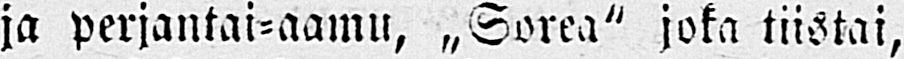ja perjantai-aamu, „Sorea" joka tiistai,
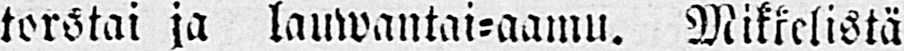torstai ja lauwantai-aamu. Mikkelistä
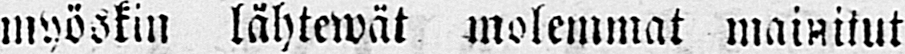myöskin lähtewät molemmat mainitut
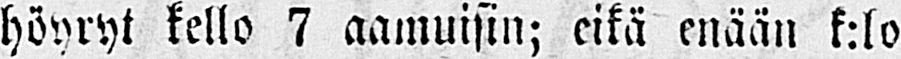höyryt kello 7 aamuisin; eikä enään k:lo
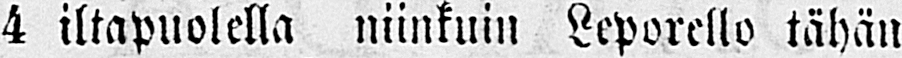4 ikäpuolella niinkuin Leporello tähän
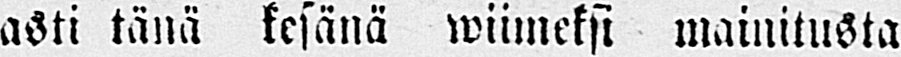asti tänä kesänä wiimeksi mainitusta
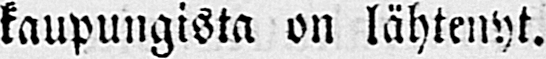kaupungista on lähtenyt.
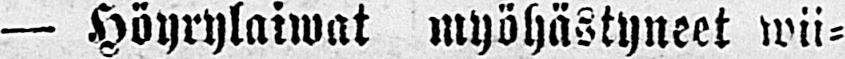— Höyrylaiwat myöhästyneet wii-
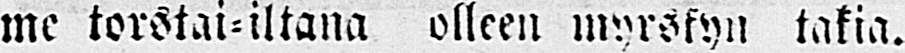me torstai-iltana olleen myrskyn takia.
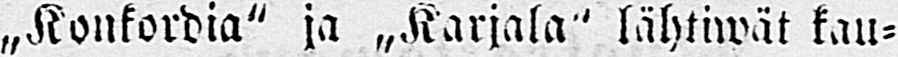„Konkordia" ja „Karjala" lähtiwät kau-
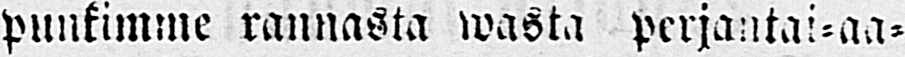punkimme rannasta wasta perjantai-aa-
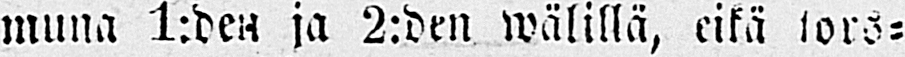muna 1:den ja 2:den wälillä, eikä tors-
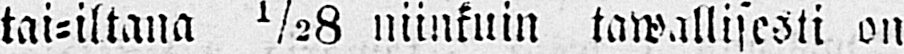tai-iltana niinkuin tawallisesti on
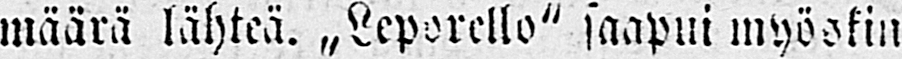määrä lähteä. „Leporello" saapui myöskin
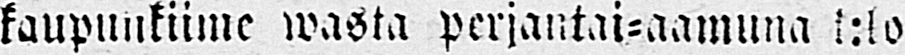kaupunkiime wasta perjantai-aamuna k:lo
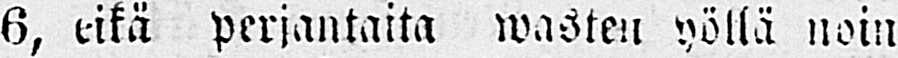6, eikä perjantaita wasten yöllä noin
